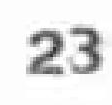23
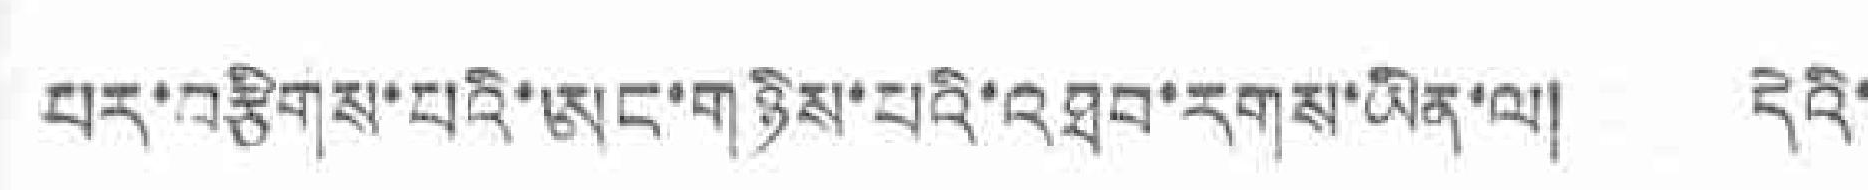པར་བརྩིགས་པའི་ཨང་གཉིས་པའི་འཐབ་དགས་ཡིན་ལ། དེའི་
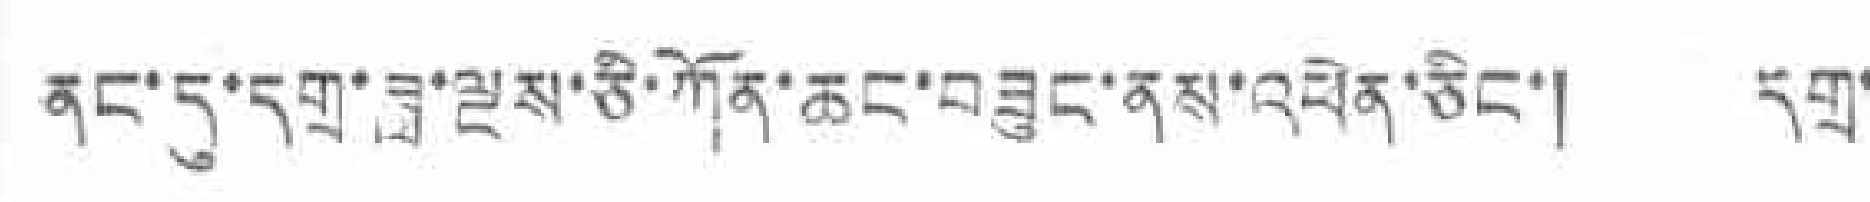ནང་དུ་དགྲ་ཟླ་ལྔས་ཅི་ཀོན་ཆང་བཟུང་ནས་འཕེན་ཅིང་། དགྲ་
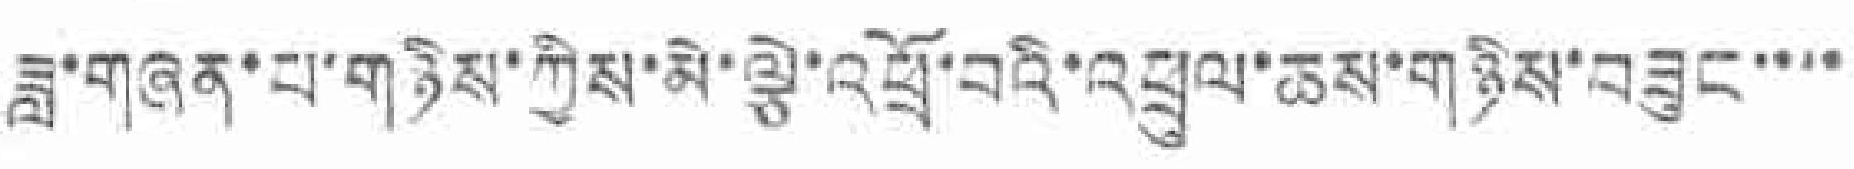ཟླ་གཞན་པ་གཉིས་ཀྱིས་མེ་ལྕེ་འཕྲོ་བའི་འཕྲུལ་ཆས་གཉིས་བཟུང་་་་
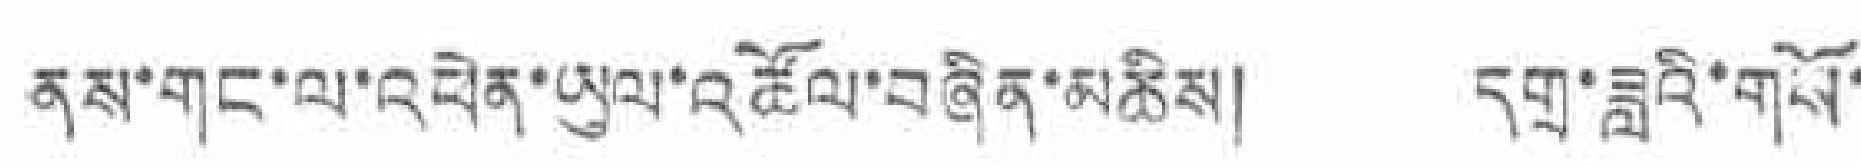ནས་གང་ལ་འཕེན་ཡུལ་འཚོལ་བཞིན་མཆིས། དགྲུ་ཟླའི་གསོ་
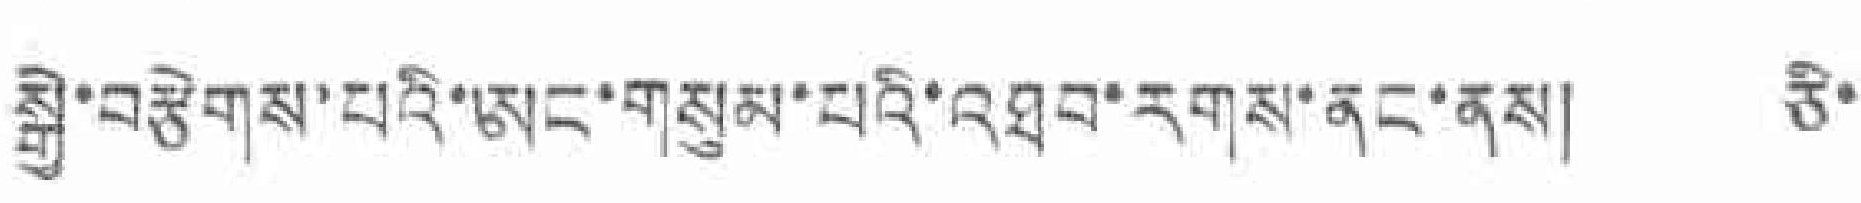སྒྱེ་བརྩེགས་པའི་ཨང་གསུམ་པའི་འཐབ་རགས་ནང་ནས། ཅི་
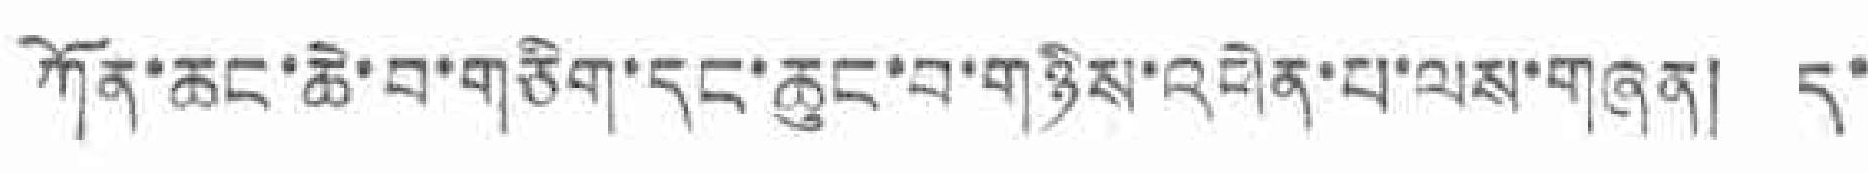ཀོན་ཆང་ཆེ་བ་གཅིག་དང་ཆུང་བ་གཉིས་འཕེན་པ་ལས་གཞན། ད་
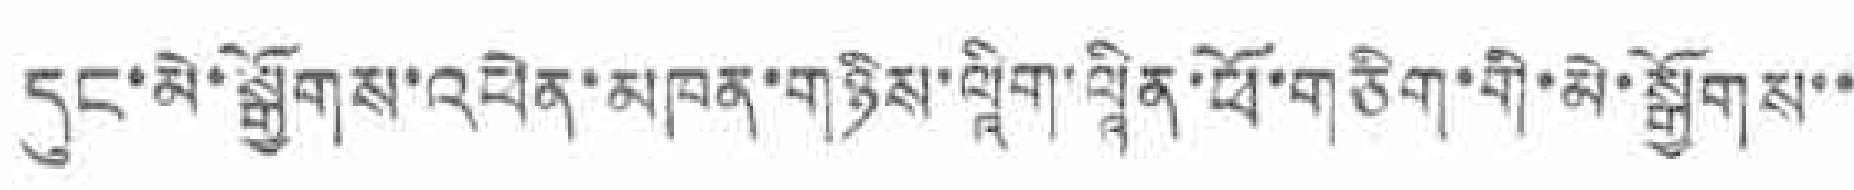དང་མེ་སྒྱོགས་འཕེན་མཁན་གཉིས་ལཱིག་ལཱིན་ཕོ་གཅིག་གི་མེ་སྒྱོགས་་
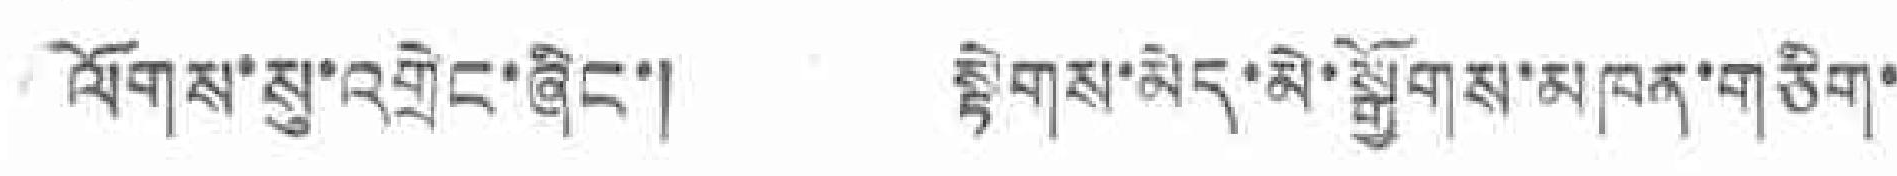ལོོགས་སུ་འགྲེང་ཞིང་། སྟེགས་མེད་མེ་སྒྱོགས་མཁན་གཅིག་
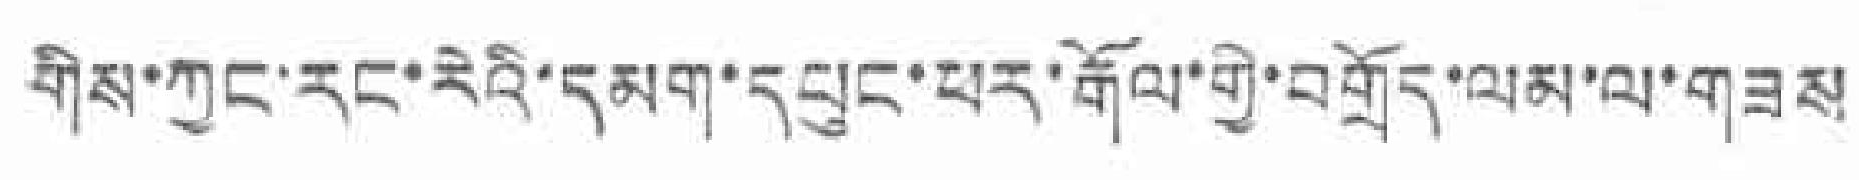གིས་ཀྱང་རང་རེའི་དམག་དཔུང་ཕར་རྒོལ་གྱི་བགྲོད་ལམ་ལ་གཟས
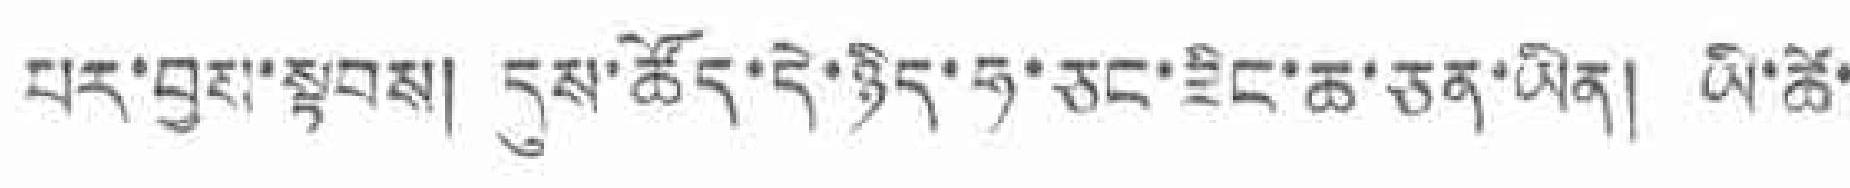པར་བྱས་སྟབས། དུས་ཚོད་དེ་ཉིད་ཧ་ཅང་ཇིང་ཆ་ཅན་ཡིན། ཡི་ཚེ་
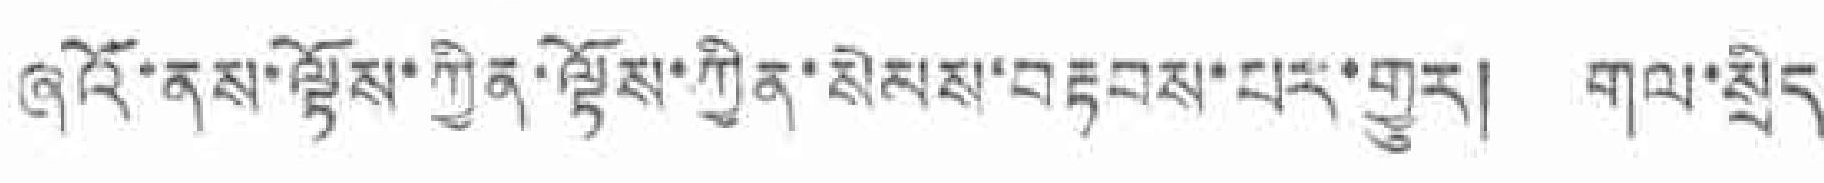ཞའོ་ནས་ལྟོས་ཀྱིན་ལྟོས་ཀྱིན་སེམས་བརྟབས་པར་གྱུར། གལ་སྲིད་
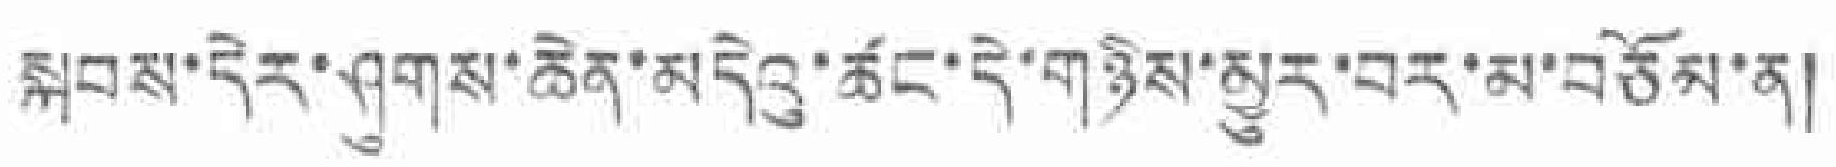སྐབས་དེར་ཤུགས་ཆེན་མདེའུ་ཚང་དེ་གཉིས་མྱུར་བར་མ་བཅོམ་ན།
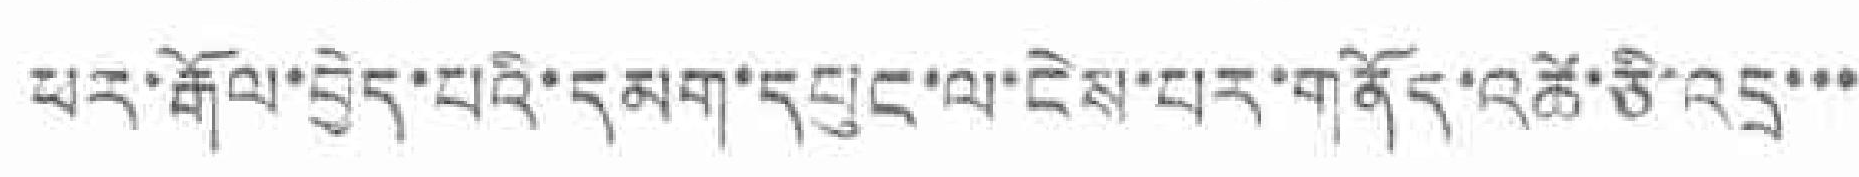ཕར་རྒོལ་བྱེད་པའི་དམག་དཔུང་ལ་ངེས་པར་གནོད་འཚེ་ཅི་འདྲ་་་་
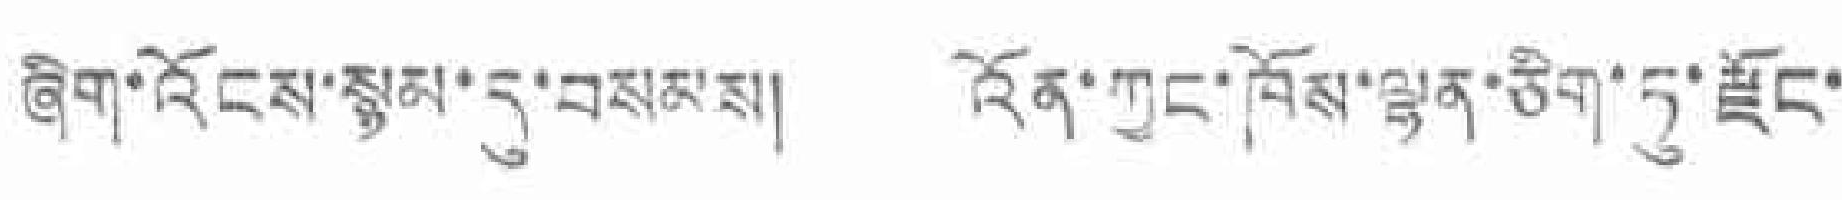ཞིག་འོངས་སྙམ་དུ་བསམས། འོན་ཀྱང་ཁོས་ལྷན་ཅིག་ཏུ་རྫོང་
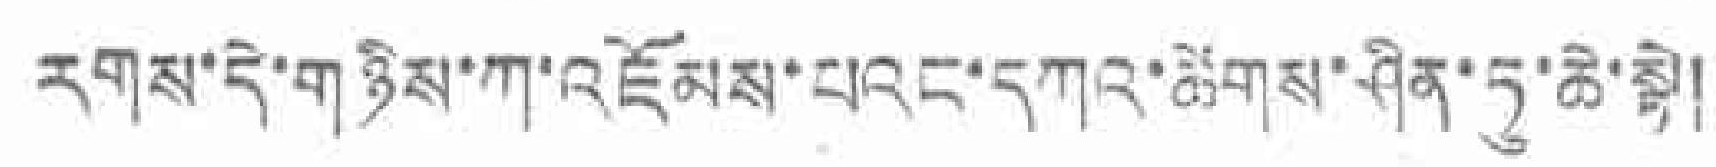རགས་དེ་གཉིས་ཀ་འཇོམས་པའང་དཀའ་ཚེགས་ཤིན་ཏུ་ཆེ་སྟེ།
